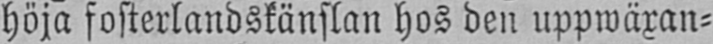höja fosterlandskänslan hos den uppwäxan-
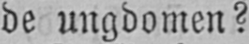de ungdomen?
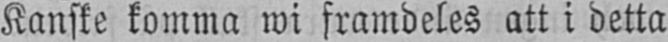Kanske komma wi framdeles att i detta
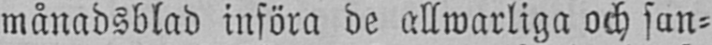månadsblad införa de allwarliga och san-
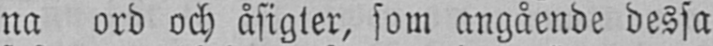na ord och åsigter, som angående dessa
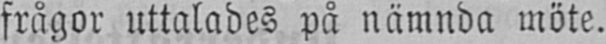frågor uttalades på nämnda möte.
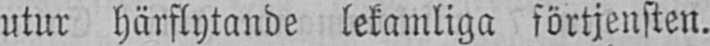utur härflytande lekamliga förtjensten.
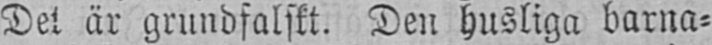Det är grundfalskt. Den husliga barna-
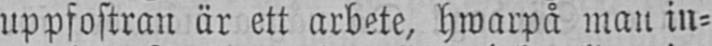uppfostran är ett arbete, hwarpå man in-
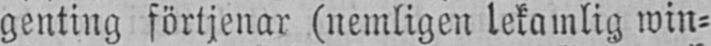genting förtjenar (nemligen lekamlig win-
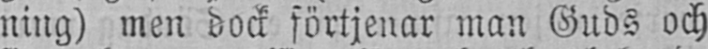ning) men dock förtjenar man Guds och
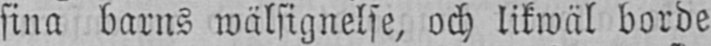sina barns wälsignelse, och likwäl borde
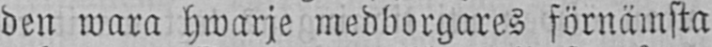den wara hwarje medborgares förnämsta
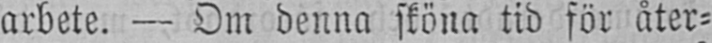arbete. — Om denna sköna tid för åter-
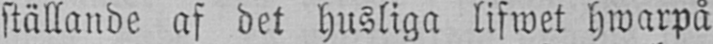ställande af det husliga lifwet hwarpå
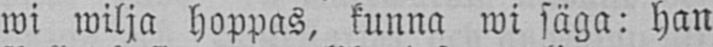wi wilja hoppas, kunna wi säga: han
